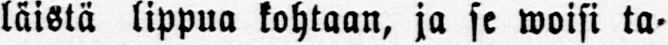läistä lippua kohtaan, ja se woisi ta-
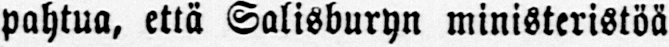pahtua, että Salisburyn ministeristöä
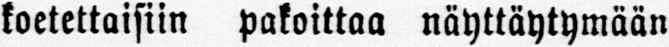koetettaisiin pakoittaa näyttäytymään
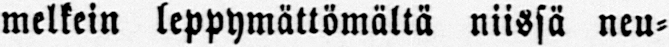melkein leppymättömältä niissä neu-
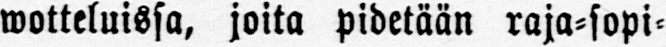wotteluissa, joita pidetään raja-sopi-
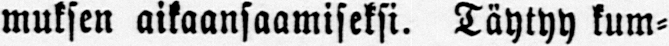muksen aikaansaamiseksi. Täytyy kum-
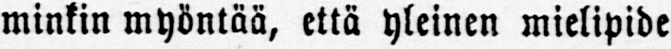minkin myöntää, että yleinen mielipide
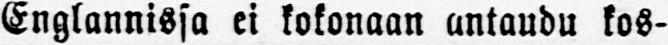Englannissa ei kokonaan antaudu kos-
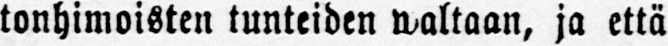tonhimoisten tunteiden waltaan, ja että
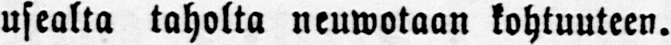usealta taholta neuwotaan kohtuuteen.
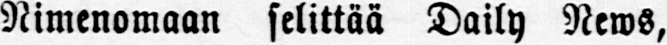Nimenomaan selittää Daily News,
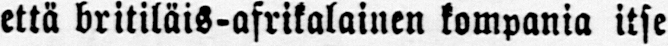että britiläis-afrikalainen kompania itse
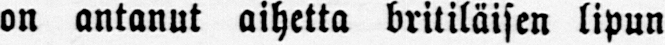on antanut aihetta britiläisen lipun
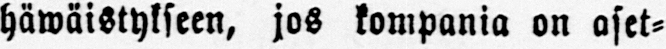häwäistykseen, jos kompania on aset-
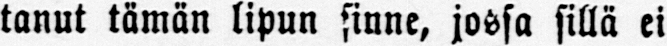tanut tämän lipun sinne, jossa sillä ei
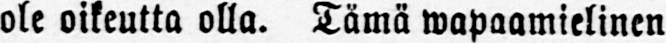ole oikeutta olla. Tämä wapaamielinen
